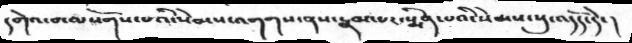དགེའ་བ་ལསོགས་པའི་སེམས་འགགས་ནས་རྣམ་པར་སྨིན་པའི་སེམས་སུ་འདོད་དེ་།
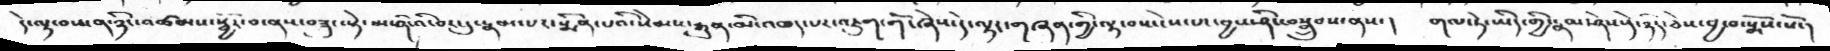དེ་ལྟ་བས་ན་ཉིང་འཚམས་སྦྱོར་བ་ནས་བཟུང་སྟེ་མ་ཤི་འི་བར་དུ་རྣམ་པར་སྨིན་པའི་སེམས་རྒྱུན་མི་འཆད་པར་འཇུག་གོ་ཞེས་དེ་ལྟར་གཞན་གྱི་ལྟ་བས་ངེས་པར་བྱས་ཤིང་བསྒྲུབས་ནས་།    གལ་ཏེ་ཡིད་གྱི་རྣམ་ཤེས་དེ་ཉིད་ཅེས་བྱ་བ་སྨོས་སོ་།
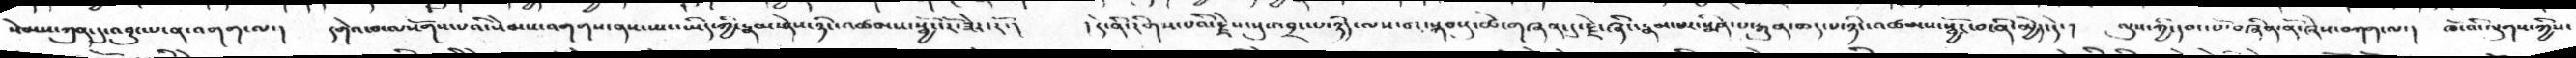སེམས་ཀུན་དུ་འབྱུང་པ་ན་འགག་ལ་།  དགེའ་བ་ལསོགས་པའི་སེམས་འགགས་ནས་ཡང་ཡིད་ཀྱི་རྣམ་ཤེས་ཉིང་འཚམས་སྦྱོར་རོ་ཟེར་རོ་།   །དེ་ནི་རིགས་པའི་རྗེས་སུ་འབྲང་པ་ཉིད་ལས་བར་སྐབསུ་ཚེ་གཞན་དུ་རྗེ་ཞིང་རྣམ་པར་སྨིན་པ་རྒྱུན་ཆད་པ་ཉིང་འཚམས་སྦྱོར་བ་ནི་མྱེད་དེ་།    ལུས་ཀྱི་དབང་པོ་བཞིན་ནོ་ཞེས་བཀག་ལ་།  ཁོ་འི་ལུགས་ཀྱིས་
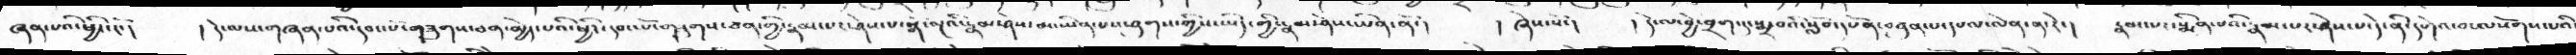ཞན་པའི་ཕྱིར་རོ་།    ། དེ་ལས་གཞན་པའི་དབང་པོ་གཟུགས་ཅན་མྱེད་པའི་ཕྱིར་དབང་པོ་གདགས་ཅན་གྱི་རྣམ་པར་ཤེས་པ་སྒོ་ལྔའི་རྣམ་ཤེས་མ་ཡིན་པས་ཤུགས་ཀྱིས་ཡིད་གྱི་རྣམ་ཤེས་ཡིན་ནོ་།   །  ཞེས་སོ་།   ། དེ་ལ་བྱེ་བྲག་དུ་སྨྲ་བའི་སློབ་དཔོན་བཙུན་པ་དཔལ་ལེན་ན་རེ་།  རྣམ་པར་སྨིན་པའི་རྣམ་པར་ཤེས་པ་དེ་ནི་དགེའ་བ་ལསོགས་པའི་
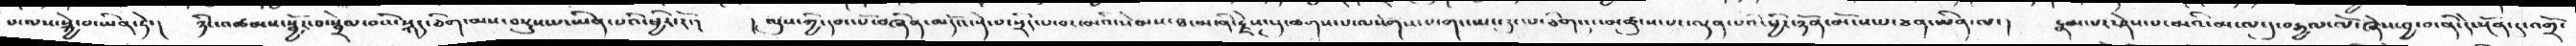པ་ལས་སྐྱེ་བ་ཡིན་ཏེ་།   ཉིང་འཚམས་སྦྱོར་བ་སྦྲེལ་བའི་སྐད་ཅིག་མས་བསྡུས་པ་ཡིན་པའི་ཕྱིར་རོ་།   ། ལུས་ཀྱི་དབང་པོ་བཞིན་མདོའ་སྡེ་པ་སྲིད་པ་བར་མའི་སེམས་ཐ་མ་ནི་རྗེས་སུ་ཆགས་པ་ལསོགས་པ་གང་ཡང་རུང་པ་ཅིག་དང་མཚུངས་པར་ལྡན་པའི་ཕྱིར་ཉོན་མོངས་པ་ཅན་ཡིན་ལ་།  རྣམ་པར་ཤེས་པ་མའི་མངལ་དུ་བརྒྱལ་ལོ་ཞེས་བྱ་བ་ནི་དེ་སྔོན་དུ་འགྲོ་
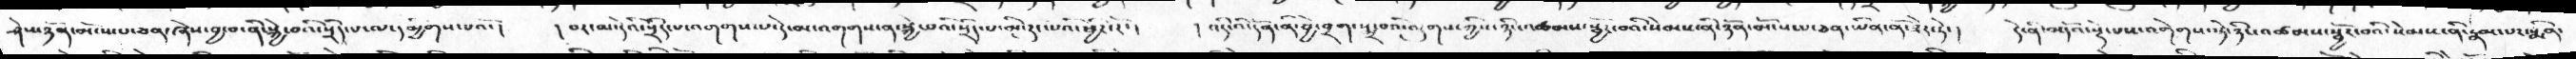ཤེས་ཉོན་མོངས་པ་ཅན་ཞེས་བྱ་ནི་སྐྱེ་བའི་སྲིད་པ་ལ་དམྱིགས་པའོ་།   ། བར་མ་དེའི་སྲིད་པ་འགགས་པ་དེ་མ་འགགས་ན་སྐྱེ་བའི་སྲིད་པ་མི་རུང་པའི་ཕྱིར་རོ་།  །འདི་འི་དོན་ནི་བྱེ་བྲག་འདྲ་བའི་ལུགས་ཀྱིས་ཉིང་འཚམས་སྦྱོར་བའི་སེམས་ནི་ཉོན་མོངས་པ་ཅན་ཡིན་ནོ་ཟེར་ཏེ་།   དེ་ནི་མདོའ་སྡེ་པས་འགེགས་སྟེ་ཉིང་འཚམས་སྦྱོར་བའི་སེམས་ནི་རྣམ་པར་སྨིན་
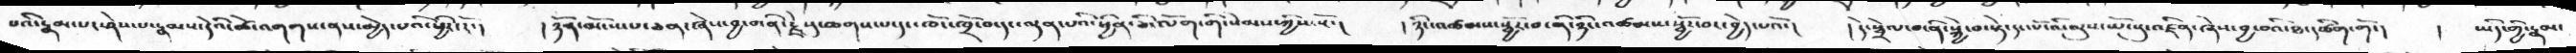པའི་རྣམ་པར་ཤེས་པ་རྣམས་དེའི་ཚེ་འགགས་ནས་མྱེད་པའི་ཕྱིར་རོ་།   །ཉོན་མོངས་པ་ཅན་ཞེས་བྱ་བ་ནི་རྗེསུ་ཆགས་པ་དང་ཁོང་ཁྲོ་བ་དང་ལྡན་པའི་ཕྱིན་ཅི་ལོག་གི་སེམས་ཀྱིས་སོ་།   །ཉིང་འཚམས་སྦྱོར་བ་ནི་ཉིང་འཚམས་སྦྱོར་བར་བྱེད་པའོ་།  །དེ་སྦྲེལ་བ་ནི་སྐྱེ་བ་སྟེ་དང་པོ་འི་ལུས་ཡོངསུ་འཛིན་ཞེས་བྱ་བའི་ཐ་དཚིག་གོ་།   །  ཡིད་གྱི་རྣམ་
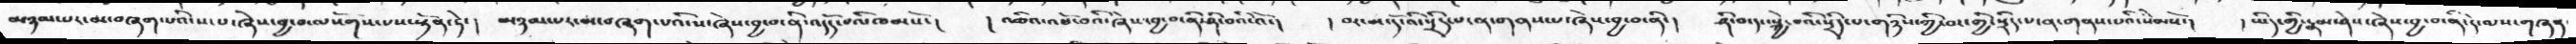མཉམ་པར་མ་བཞག་པའི་ས་པ་ཞེས་བྱ་བ་ལསོགས་པས་སྟོན་ཏེ་།     མཉམ་པར་མ་བཞག་པའི་ས་ཞེས་བྱ་བ་ནི་འདོད་པའི་ཁམསོ་།   ། འཆིའ་འཕོ་བའི་ཞེས་བྱ་བ་ནི་ཤི་བའི་འོ་།   །བར་མ་དོ་འི་སྲིད་པ་ན་གནས་པ་ཞེས་བྱ་བ་ནི་།  ཤི་བ་དང་སྐྱེ་བའི་སྲིད་པ་གཉིས་ཀྱི་བར་གྱི་སྲིད་པ་ན་གནས་པའི་སེམསོ་།   ། ཡིད་གྱི་རྣམ་ཤེས་ཞེས་བྱ་བ་ནི་དེ་ལས་གཞན་
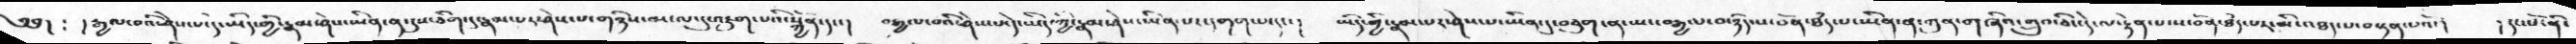༄༅།  ༴ ། རྒྱལ་བའི་ཤེས་པ་དེ་ཡིད་ཀྱི་རྣམ་ཤེས་ཡིན་ན་དུས་ཅིག་དུ་རྣམ་པར་ཤེས་པ་གཉིས་མངལ་དུ་འཇུག་པའི་སྐྱོན་དང་།   བརྒྱལ་བའི་ཤེས་པ་དེ་ཡིད་ཀྱི་རྣམ་ཤེས་ཡིན་པར་དགག་པ་དང་།  ཡིད་གྱི་རྣམ་པར་ཤེས་པ་ཡིན་དུ་བཅུག་ན་ཡང་བརྒྱལ་བ་ཉིད་ས་བོན་ཐཾད་པ་ཡིན་ན་ཀུན་གཞིའ་གྲུབ་ཅིང་དེ་ལ་རྟེན་པ་ས་བོན་ཐཾད་པར་མི་འཐད་པ་བསྟན་པའོ་།    ། དང་པོ་ནི་
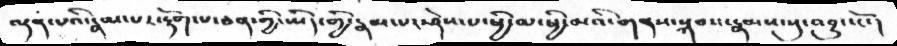ལྡན་པའི་རྣམ་པར་རྟོག་པ་ཅན་གྱི་ཡིད་གྱི་རྣམ་པར་ཤེས་པ་ཕྱི་མ་ཕྱི་མའི་གནས་སྐབས་རྣམས་སུ་འབྱུང་ངོ་།
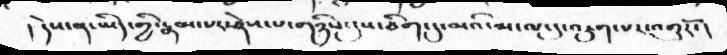།  དེས་ན་ཡིད་གྱི་རྣམ་པར་ཤེས་པ་གཉིས་དུས་ཅིག་དུ་མའི་མངལ་དུ་འཇུག་པར་འགྱུརོ་།
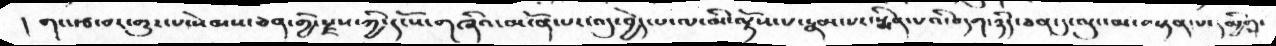།   གང་རྩ་བར་གྱུར་པ་སེམས་ཅན་གྱི་རྫས་ཀྱི་དངོས་གཞིའ་མངོན་པར་འདུ་བྱེད་པ་ལ་མི་ལྟོས་པ་རྣམ་པར་སྨིན་པའི་བདག་ཉིད་ཅན་དུ་ལུང་མ་བསྟན་པ་དམྱིག་
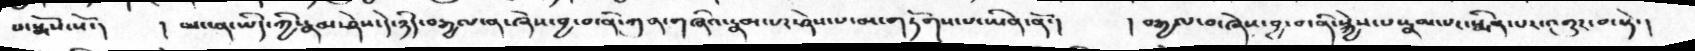པ་སྨོས་སོ་།   ། ཡང་ན་ཡིད་ཀྱི་རྣམ་ཤེས་དེ་ཉིད་བརྒྱལ་ན་ཞེས་བྱ་བ་ནི་ཀུན་གཞིའི་རྣམ་པར་ཤེས་པ་མ་གཏོགས་པ་ཡིན་ནོ་།   ། བརྒྱལ་བ་ཞེས་བྱ་བ་ནི་སྐྱེས་པ་རྣམ་པར་སྨིན་པར་འགྱུར་བ་སྟེ་།
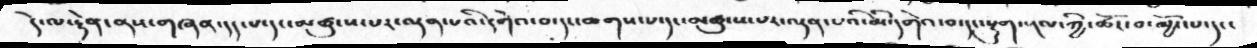དེ་ལ་རྟེན་ནས་གཞན་དད་པ་དང་མཚུངས་པར་ལྡན་པའི་དགེའ་བ་དང་ཆགས་པ་དང་མཚུངས་པར་ལྡན་པའི་མི་དགེའ་བ་དང་སྡུག་སྔལ་ཀྱི་ཚོར་བ་མྱོང་པ་དང་
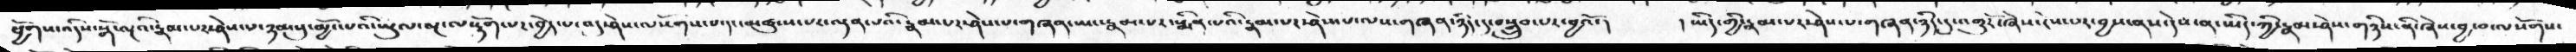ཕྱོགས་འདིས་སྒོ་ལྔའི་རྣམ་པར་ཤེས་པ་ཉམསུ་མྱོང་པའི་ཡུལ་ལྔ་ལ་རྟོག་པར་བྱེད་པ་འདུ་ཤེས་ལསོགས་པ་དང་མཚུངས་པར་ལྡན་པའི་རྣམ་པར་ཤེས་པ་གཞན་ཡང་རྣམ་པར་སྨིན་པའི་རྣམ་པར་ཤེས་པ་ལས་གཞན་ཉིད་དུ་བསྒྲུབ་པར་བྱའོ་།  །ཡིད་གྱི་རྣམ་པར་ཤེས་པ་གཞན་ཉིད་དུ་འགྱུརོ་ཞེས་ངེས་པར་བྱས་ནས་དེས་ན་ཡིད་ཀྱི་རྣམ་ཤེས་གཉིས་ནི་ཞེས་བྱ་བ་ལསོགས་
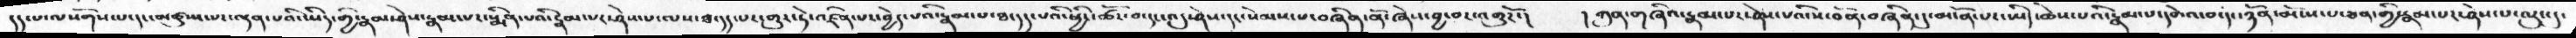དད་པ་ལསོགས་པ་དང་མཚུངས་པར་ལྡན་པའི་ཡིད་གྱི་རྣམ་ཤེས་རྣམ་པར་སྨིན་པའི་རྣམ་པར་ཤེས་པ་ལས་ཐ་དད་པར་དགུར་ཏེ་འཛིན་པར་བྱེད་པའི་རྣམ་པ་ཐ་དད་པའི་ཕྱིར་ཚོར་བ་དང་འདུ་ཤེས་དང་སེམས་པ་བཞིན་ནོ་ཞེས་བྱ་བར་འགྱུརོ་།   །ཀུན་གཞིའ་རྣམ་པར་ཤེས་པའི་ས་བོན་བཞིན་དུ་མངོན་པར་ཡིད་ཆེས་པའི་རྣམ་པ་དགེའ་བ་དང་ཉོན་མོངས་པ་ཅན་གྱི་རྣམ་པར་ཤེས་པ་ལུང་དུ་
